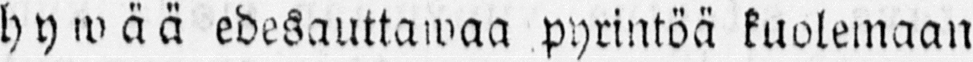hywää edesauttawaa pyrintöä kuolemaan
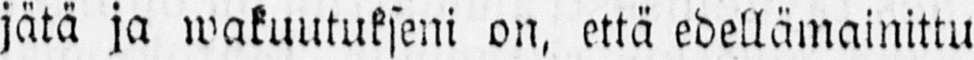jätä ja wakuutukseni on, että edellämainittu
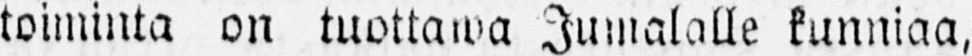toiminta on tuottawa Jumalalle kunniaa,
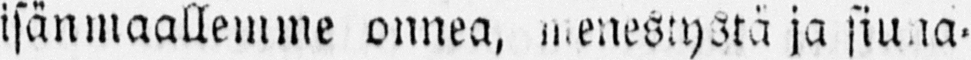isänmaallemme onnea, menestystä ja siuna-
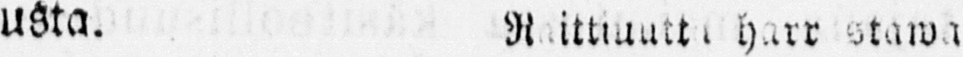usta. Raittiutta, harr stawa
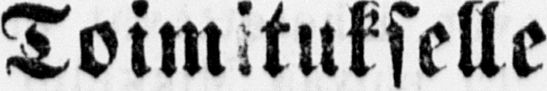Toimitukselle
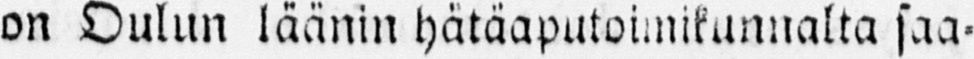on Oulun läänin hätäaputoimikunnalta saa-
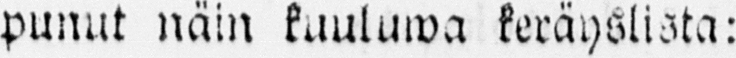punut näin kuuluwa keräyslista:
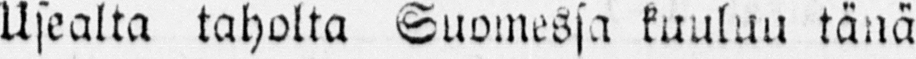Usealta taholta Suomessa kuuluu tänä
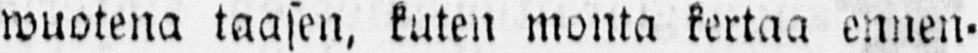wuotena taasen, kuten monta kertaa ennen-
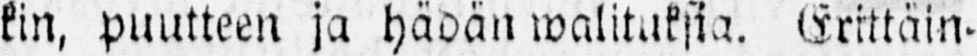kin, puutteen ja hädän walituksia. Erittäin-
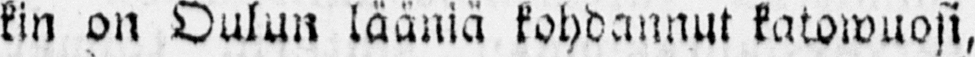kin on Oulun lääniä kohdannut katowuosi,
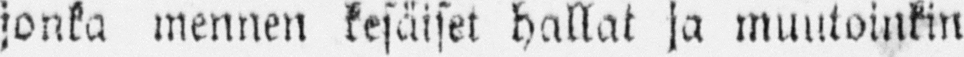jonka mennen kesäiset hallat ja muutoinkin
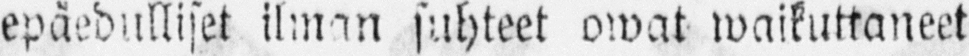epäedulliset ilman suhteet owat waikuttaneet
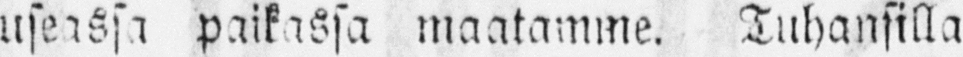useassa parkissa maatamme. Tuhansilla
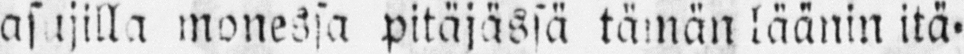asujilla monessa pitäjässä tämän läänin itä-
